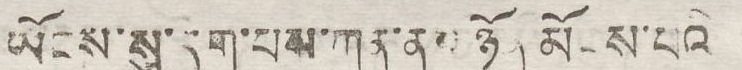ཡོངས་སུ་དག་པས་ཀུན་ནས་ཉོན མོངས་པའི་
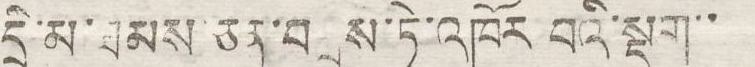དྲི་མ་ཐམས་ཅན་བགྲུས་ཏེ་འཁོར བའི་སྡུག་་
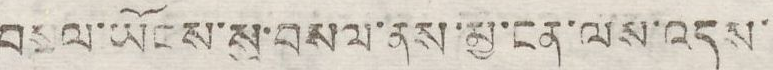བསྔལ་ཡོངས་སུ་བསལ་ནས་མྱ་ངན་ལས་འདས་
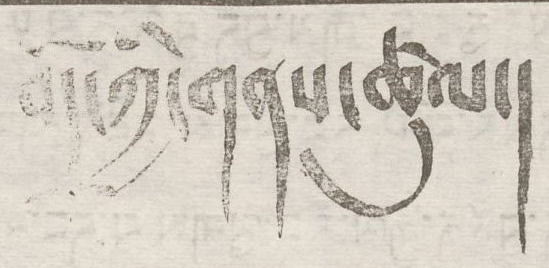བོད་ཀྱི་གནས་ཚུལ།
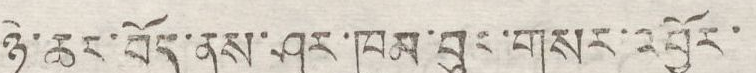ཉེ་ཆར་བོད་ནས་ཤར་ཁུམ་བུར་གསར་འབྱོར་
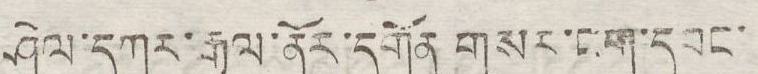ཤེལ་དཀར་རྒྱལ་ནོར་དགོན གསར་ངག་དབང་
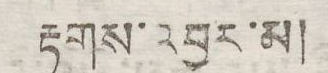རྟགས་འབྱར་མ།
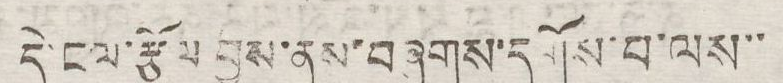དེ་ངལ་རྩོལ་བྱས་ནས་བཞུགས་དགོས་པ་ལས་་
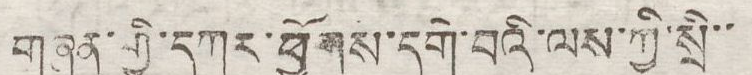གཞན་གྱི་དཀར་ཕྱོགས་དགེ་བའི་ལས་ཀྱི་སྲི་་
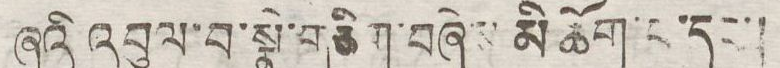ཞུའི་འབུལ་བ་སྣེ་གཅིག་བཞེས་མི་ཆོག་ང་དང་།
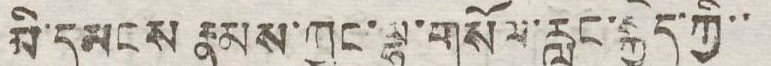མི་དམངས རྣམས་ཀྱང་ལྷ་གསོལ་རླུང་སྐྱེད་ཀྱི་་
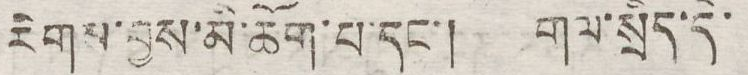རིགས་བྱས་མི་ཆོག་པ་དང་། གལ་སྲིད་དེ་
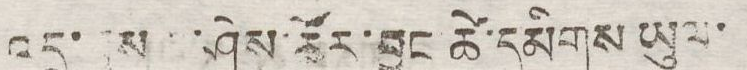འདྲ་བྱས ་ཤེས་ཚོར་བྱུང ཚེ་དམིགས ཡུལ་
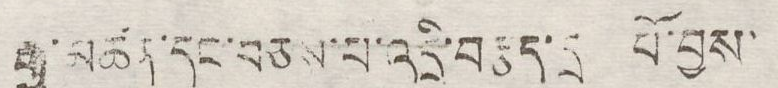རྒྱུ་མཚན་དང་བཅས་པ་འདྲི་བརྩད་དྲ པོ་བྱས་
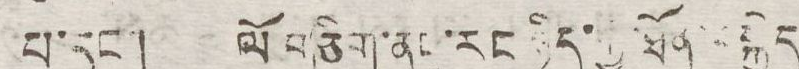པ་དང་། ལོ་གཅིག་ནང་རང་ཉིད་ཀྱི་ཐོན་བསྐྱེད
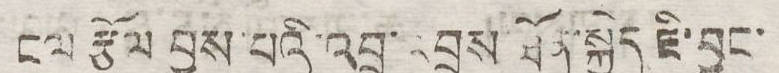ངལ་རྩོལ བྱས་པའི་འབྲུ་འབྲས་ཐོན་སྐྱེད ཇི་བྱུང་
